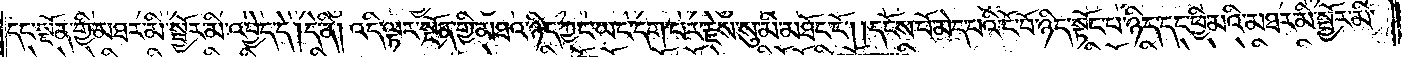དང་སྔོན་གྱི་མཐར་མི་སྦྱོར་མི་འབྱེད་དེ། དེ་ནི། འདི་ལྟར་སྔོན་གྱི་མཐའ་ཉིད་ཀྱང་ཡང་དག་པར་རྗེས་སུ་མི་མཐོང་ངོ༌། །དངོས་པོ་མེད་པའི་ངོ་བོ་ཉིད་སྟོང་པ་ཉིད་དང་ཕྱི་མའི་མཐར་མི་སྦྱོར་མི་
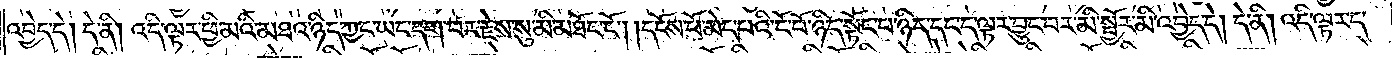འབྱེད་དེ། དེ་ནི། འདི་ལྟར་ཕྱི་མའི་མཐའ་ཉིད་ཀྱང་ཡང་དག་པར་རྗེས་སུ་མི་མཐོང་ངོ༌། །དངོས་པོ་མེད་པའི་ངོ་བོ་ཉིད་སྟོང་པ་ཉིད་དང་ད་ལྟར་བྱུང་བར་མི་སྦྱོར་མི་འབྱེད་དེ། དེ་ནི། འདི་ལྟར་ད་
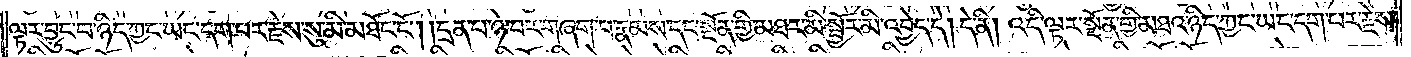ལྟར་བྱུང་བ་ཉིད་ཀྱང་ཡང་དག་པར་རྗེས་སུ་མི་མཐོང་ངོ༌། །དྲན་པ་ཉེ་བར་གཞག་པ་རྣམས་དང་སྔོན་གྱི་མཐར་མི་སྦྱོར་མི་འབྱེད་དེ། དེ་ནི། འདི་ལྟར་སྔོན་གྱི་མཐའ་ཉིད་ཀྱང་ཡང་དག་པར་རྗེས་
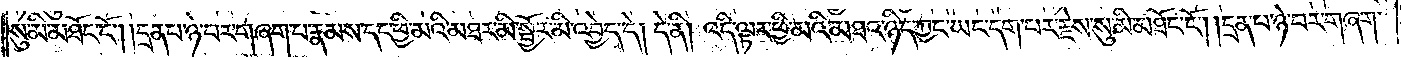སུ་མི་མཐོང་ངོ༌། །དྲན་པ་ཉེ་བར་གཞག་པ་རྣམས་དང་ཕྱི་མའི་མཐར་མི་སྦྱོར་མི་འབྱེད་དེ། དེ་ནི། འདི་ལྟར་ཕྱི་མའི་མཐའ་ཉིད་ཀྱང་ཡང་དག་པར་རྗེས་སུ་མི་མཐོང་ངོ༌། །དྲན་པ་ཉེ་བར་གཞག་
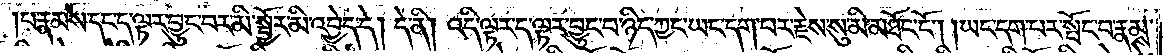པ་རྣམས་དང་ད་ལྟར་བྱུང་བར་མི་སྦྱོར་མི་འབྱེད་དེ། དེ་ནི། འདི་ལྟར་ད་ལྟར་བྱུང་བ་ཉིད་ཀྱང་ཡང་དག་པར་རྗེས་སུ་མི་མཐོང་ངོ༌། །ཡང་དག་པར་སྤོང་བ་རྣམས་
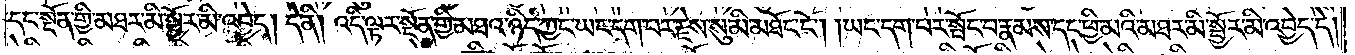དང་སྔོན་གྱི་མཐར་མི་སྦྱོར་མི་འབྱེད། དེ་ནི། འདི་ལྟར་སྔོན་གྱི་མཐའ་ཉིད་ཀྱང་ཡང་དག་པར་རྗེས་སུ་མི་མཐོང་ངོ༌། །ཡང་དག་པར་སྤོང་བ་རྣམས་དང་ཕྱི་མའི་མཐར་མི་སྦྱོར་མི་འབྱེད་དེ།
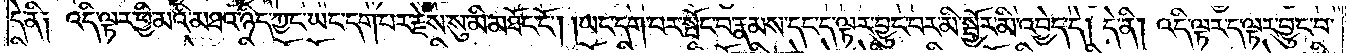དེ་ནི༑ འདི་ལྟར་ཕྱི་མའི་མཐའ་ཉིད་ཀྱང་ཡང་དག་པར་རྗེས་སུ་མི་མཐོང་ངོ༌། །ཡང་དག་པར་སྤོང་བ་རྣམས་དང་ད་ལྟར་བྱུང་བར་མི་སྦྱོར་མི་འབྱེད་དེ། དེ་ནི། འདི་ལྟར་ད་ལྟར་བྱུང་བ་
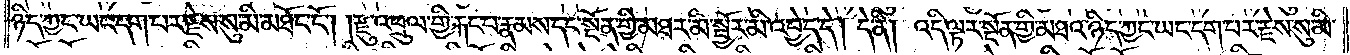ཉིད་ཀྱང་ཡང་དག་པར་རྗེས་སུ་མི་མཐོང་ངོ༌། །རྫུ་འཕྲུལ་གྱི་རྐང་པ་རྣམས་དང་སྔོན་གྱི་མཐར་མི་སྦྱོར་མི་འབྱེད་དེ། དེ་ནི། འདི་ལྟར་སྔོན་གྱི་མཐའ་ཉིད་ཀྱང་ཡང་དག་པར་རྗེས་སུ་མི་
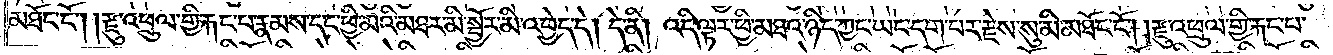མཐོང་ངོ༌། །རྫུ་འཕྲུལ་གྱི་རྐང་པ་རྣམས་དང་ཕྱི་མའི་མཐར་མི་སྦྱོར་མི་འབྱེད་དེ། དེ་ནི། འདི་ལྟར་ཕྱི་མཐའ་ཉིད་ཀྱང་ཡང་དག་པར་རྗེས་སུ་མི་མཐོང་ངོ༌། །རྫུ་འཕྲུལ་གྱི་རྐང་པ་
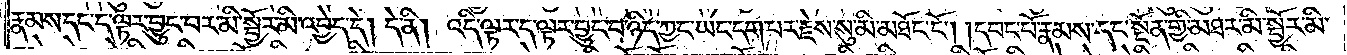རྣམས་དང་ད་ལྟར་བྱུང་བར་མི་སྦྱོར་མི་འབྱེད་དེ། དེ་ནི། འདི་ལྟར་ད་ལྟར་བྱུང་བ་ཉིད་ཀྱང་ཡང་དག་པར་རྗེས་སུ་མི་མཐོང་ངོ༌། །དབང་པོ་རྣམས་དང་སྔོན་གྱི་མཐར་མི་སྦྱོར་མི་
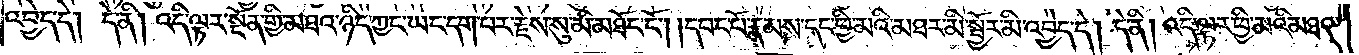འབྱེད་དེ། དེ་ནི། འདི་ལྟར་སྔོན་གྱི་མཐའ་ཉིད་ཀྱང་ཡང་དག་པར་རྗེས་སུ་མི་མཐོང་ངོ༌། །དབང་པོ་རྣམས་དང་ཕྱི་མའི་མཐར་མི་སྦྱོར་མི་འབྱེད་དེ། དེ་ནི། འདི་ལྟར་ཕྱི་མའི་མཐའ་
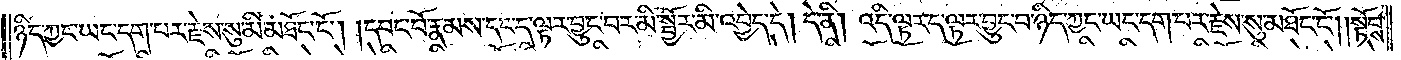ཉིད་ཀྱང་ཡང་དག་པར་རྗེས་སུ་མི་མཐོང་ངོ༌། །དབང་པོ་རྣམས་དང་ད་ལྟར་བྱུང་བར་མི་སྦྱོར་མི་འབྱེད་དེ། དེ་ནི། འདི་ལྟར་ད་ལྟར་བྱུང་བ་ཉིད་ཀྱང་ཡང་དག་པར་རྗེས་སུ་མཐོང་ངོ༌། །སྟོབས་
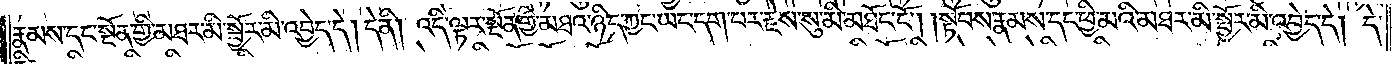རྣམས་དང་སྔོན་གྱི་མཐར་མི་སྦྱོར་མི་འབྱེད་དེ། དེ་ནི། འདི་ལྟར་སྔོན་གྱི་མཐའ་ཉིད་ཀྱང་ཡང་དག་པར་རྗེས་སུ་མི་མཐོང་ངོ༌། །སྟོབས་རྣམས་དང་ཕྱི་མའི་མཐར་མི་སྦྱོར་མི་འབྱེད་དེ། དེ་
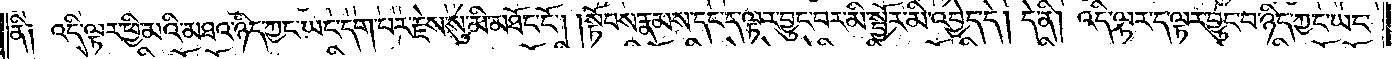ནི༑ འདི་ལྟར་ཕྱི་མའི་མཐའ་ཉིད་ཀྱང་ཡང་དག་པར་རྗེས་སུ་མི་མཐོང་ངོ༌། །སྟོབས་རྣམས་དང་ད་ལྟར་བྱུང་བར་མི་སྦྱོར་མི་འབྱེད་དེ། དེ་ནི། འདི་ལྟར་ད་ལྟར་བྱུང་བ་ཉིད་ཀྱང་ཡང་
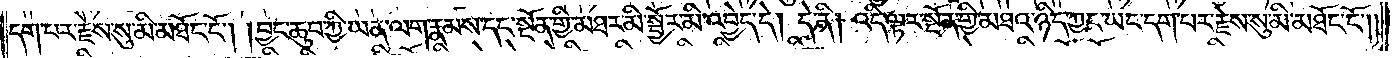དག་པར་རྗེས་སུ་མི་མཐོང་ངོ༌། །བྱང་ཆུབ་ཀྱི་ཡན་ལག་རྣམས་དང་སྔོན་གྱི་མཐར་མི་སྦྱོར་མི་འབྱེད་དེ། དེ་ནི། འདི་ལྟར་སྔོན་གྱི་མཐའ་ཉིད་ཀྱང་ཡང་དག་པར་རྗེས་སུ་མི་མཐོང་ངོ༌༎
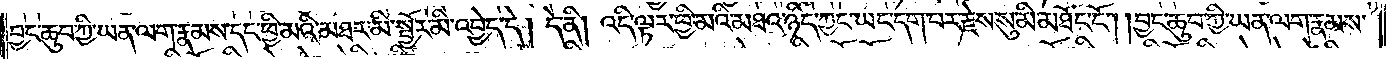བྱང་ཆུབ་ཀྱི་ཡན་ལག་རྣམས་དང་ཕྱི་མའི་མཐར་མི་སྦྱོར་མི་འབྱེད་དེ། དེ་ནི། འདི་ལྟར་ཕྱི་མའི་མཐའ་ཉིད་ཀྱང་ཡང་དག་པར་རྗེས་སུ་མི་མཐོང་ངོ༌། །བྱང་ཆུབ་ཀྱི་ཡན་ལག་རྣམས་
